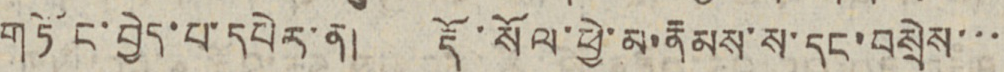གཏོང་བྱེད་པ་དཔེར་ན། རྡོ་སོལ་ཕྱེ་མ་རྣམས་ས་དང་བསྲེས་་་
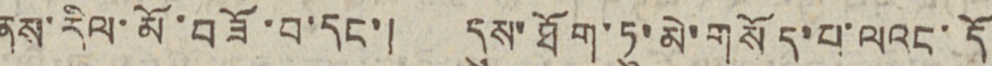ནས་རིལ་མོ་བཟོ་བ་དང་། དུས་ཐོག་ཏུ་མེ་གསོད་པ་ལའང་དོ
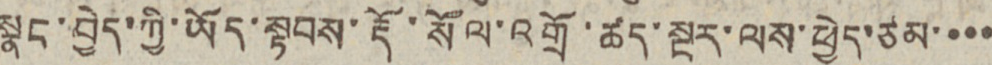སྣང་བྱེད་ཀྱི་ཡོད་སྟབས་རྡོ་སོལ་འགྲོ་ཚད་སྔར་ལས་ཕྱེད་ཙམ་་་་
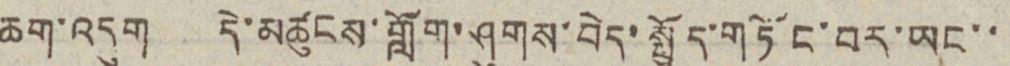ཆག་འདུག དེ་མཚུངས་གློག་ཤུགས་བེད་སྤྱོད་གཏོང་བར་ཡང་་
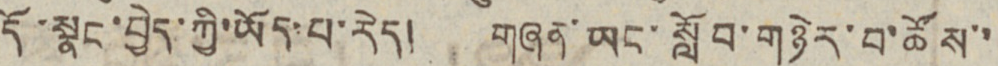དོ་སྣང་བྱེད་ཀྱི་ཡོད་པ་རེད། གཞན་ཡང་སློབ་གཉེར་བ་ཚོས་་
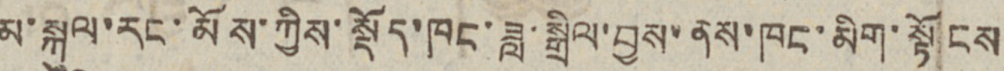མ་སྐུལ་རང་མོས་ཀྱིས་སྡོད་ཁང་ཟླ་སྒྲིལ་བྱས་ནས་ཁང་མིག་སྟོངས
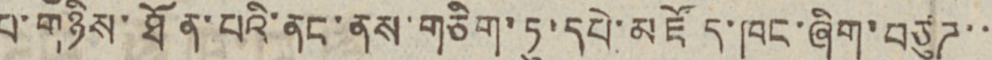པ་གཉིས་ཐོན་པའི་ནང་ནས་གཅིག་ཏུ་དཔེ་མཛོད་ཁང་ཞིག་བཙུཊ་་
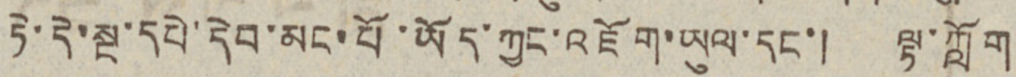ཏེ་དེ་སྔ་དཔེ་དེབ་མང་པོ་ཡོད་ཀྱང་འཇོག་ཡུལ་དང་། ལྟ་ཀློག
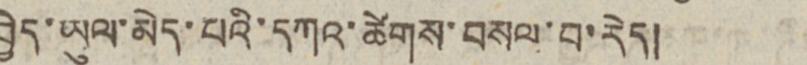བྱེད་ཡུལ་མེད་པའི་དཀའ་ཚེགས་བསལ་བ་རེད།
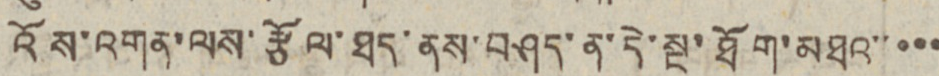འོས་འགན་ལས་རྩོལ་ཐད་ནས་བཤད་ན་དེ་སྔ་ཐོག་མཐའ་་་་་
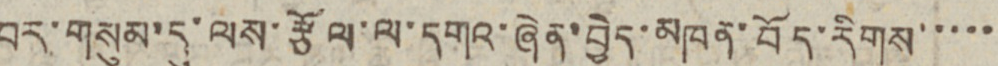བར་གསུམ་དུ་ལས་རྩོལ་ལ་དགའ་ཞེན་བྱེད་མཁན་བོད་རིགས་་་་་
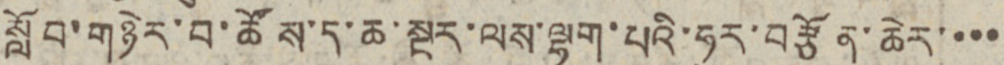སློབ་གཉེར་བ་ཚོས་ད་ཆ་སྔར་ལས་ལྷག་པའི་ཧུར་བརྩོན་ཆེར་་་་
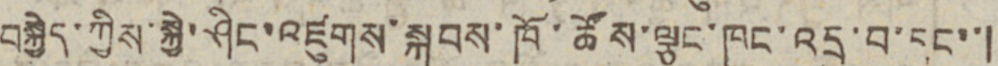བསྐྱེད་ཀྱིས་སྐྱེ་ཤིང་འཛུགས་སྐབས་ཁོ་ཚོས་ལྕང་ཁུང་འདྲུ་བ་དང་་།
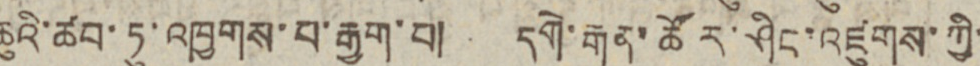ཆུའི་ཚབ་རུ་འཁྱགས་པ་རྒྱག་པ། དགེ་རྒན་ཚོར་ཤིང་འཛུགས་ཀྱི་
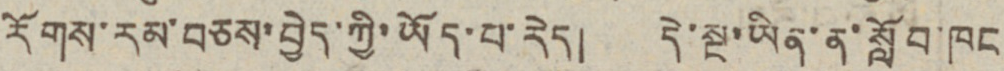རོགས་རམ་བཅས་བྱེད་ཀྱི་ཡོད་པ་རེད། དེ་སྔ་ཡིན་ན་སློབ་ཁང
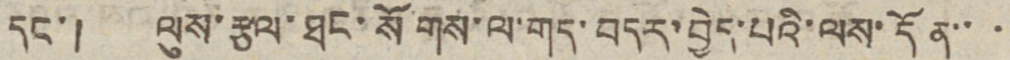དང་། ལུས་རྩལ་ཐང་སོགས་ལ་གད་བདར་བྱེད་པའི་ལས་དོན་་་
